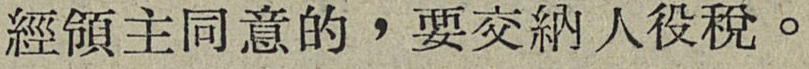經領主同意的，要交納人役稅。
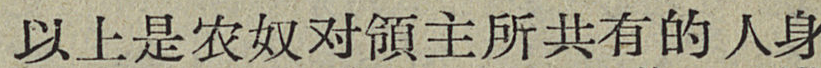以上是农奴对領主所共有的人身
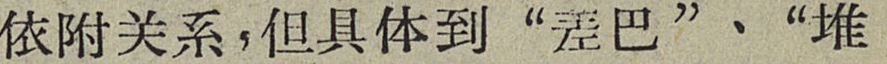依附关系，但具体到“差巴”、“堆
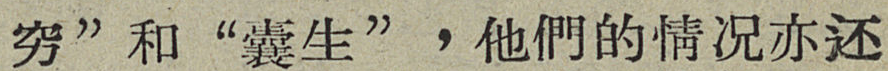穷”和“囊生”，他們的情况亦还
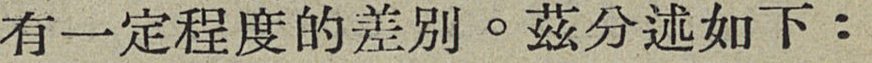有一定程度的差别。兹分述如下：
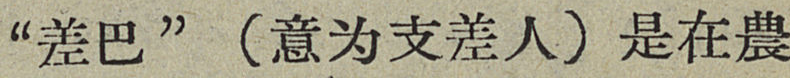“差巴”（以为支差人）是在農
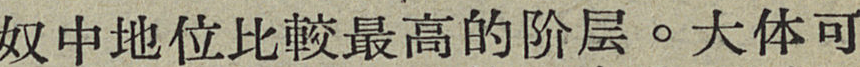奴中地位比較最高的阶层。大体可
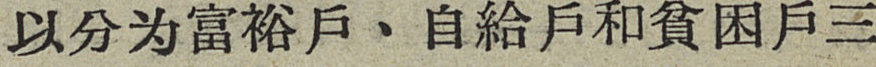以分为富裕戶、自給戶和貧困戶三
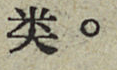类。
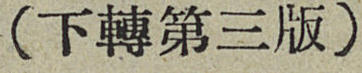（下轉第三版）
